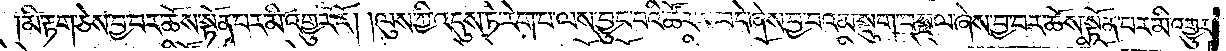མི་རྟག་ཅེས་བྱ་བར་ཆོས་སྟོན་པར་མི་འགྱུར་རོ། །ལུས་ཀྱི་འདུས་ཏེ་རེག་པ་ལས་བྱུང་བའི་ཚོར་བ་བདེ་ཞེས་བྱ་བའམ་སྡུག་བསྔལ་ཞེས་བྱ་བར་ཆོས་སྟོན་པར་མི་འགྱུར་
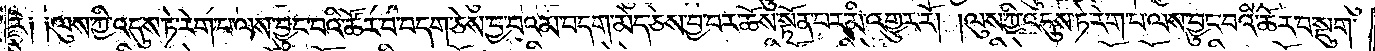རོ༑ ༑ལུས་ཀྱི་འདུས་ཏེ་རེག་པ་ལས་བྱུང་བའི་ཚོར་བ་བདག་ཅེས་བྱ་བའམ་བདག་མེད་ཅེས་བྱ་བར་ཆོས་སྟོན་པར་མི་འགྱུར་རོ། །ལུས་ཀྱི་འདུས་ཏེ་རེག་པ་ལས་བྱུང་བའི་ཚོར་བ་སྡུག་
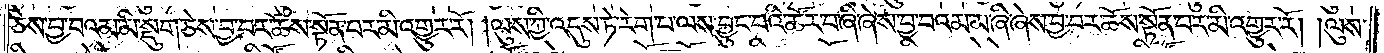ཅེས་བྱ་བའམ་མི་སྡུག་ཅེས་བྱ་བར་ཆོས་སྟོན་པར་མི་འགྱུར་རོ། །ལུས་ཀྱི་འདུས་ཏེ་རེག་པ་ལས་བྱུང་བའི་ཚོར་བ་ཞི་ཞེས་བྱ་བའམ་མ་ཞི་ཞེས་བྱ་བར་ཆོས་སྟོན་པར་མི་འགྱུར་རོ། །ལུས་
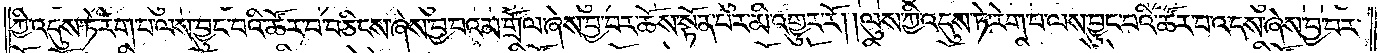ཀྱི་འདུས་ཏེ་རེག་པ་ལས་བྱུང་བའི་ཚོར་བ་བཅིངས་ཞེས་བྱ་བའམ་གྲོལ་ཞེས་བྱ་བར་ཆོས་སྟོན་པར་མི་འགྱུར་རོ། །ལུས་ཀྱི་འདུས་ཏེ་རེག་པ་ལས་བྱུང་བའི་ཚོར་བ་འདས་ཞེས་བྱ་བར་
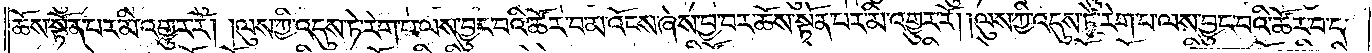ཆོས་སྟོན་པར་མི་འགྱུར་རོ། །ལུས་ཀྱི་འདུས་ཏེ་རེག་པ་ལས་བྱུང་བའི་ཚོར་བ་མ་འོངས་ཞེས་བྱ་བར་ཆོས་སྟོན་པར་མི་འགྱུར་རོ། །ལུས་ཀྱི་འདུས་ཏེ་རེག་པ་ལས་བྱུང་བའི་ཚོར་བ་ད་
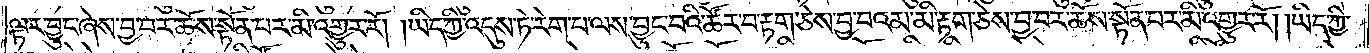ལྟར་བྱུང་ཞེས་བྱ་བར་ཆོས་སྟོན་པར་མི་འགྱུར་རོ། །ཡིད་ཀྱི་འདུས་ཏེ་རེག་པ་ལས་བྱུང་བའི་ཚོར་བ་རྟག་ཅེས་བྱ་བའམ་མི་རྟག་ཅེས་བྱ་བར་ཆོས་སྟོན་པར་མི་འགྱུར་རོ། །ཡིད་ཀྱི་
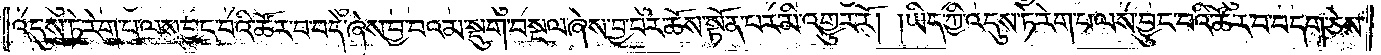འདུས་ཏེ་རེག་པ་ལས་བྱུང་བའི་ཚོར་བ་བདེ་ཞེས་བྱ་བའམ་སྡུག་བསྔལ་ཞེས་བྱ་བར་ཆོས་སྟོན་པར་མི་འགྱུར་རོ། །ཡིད་ཀྱི་འདུས་ཏེ་རེག་པ་ལས་བྱུང་བའི་ཚོར་བ་བདག་ཅེས་
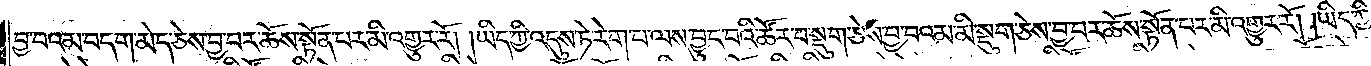བྱ་བའམ་བདག་མེད་ཅེས་བྱ་བར་ཆོས་སྟོན་པར་མི་འགྱུར་རོ། །ཡིད་ཀྱི་འདུས་ཏེ་རེག་པ་ལས་བྱུང་བའི་ཚོར་བ་སྡུག་ཅེས་བྱ་བའམ་མི་སྡུག་ཅེས་བྱ་བར་ཆོས་སྟོན་པར་མི་འགྱུར་རོ། །ཡིད་ཀྱི་
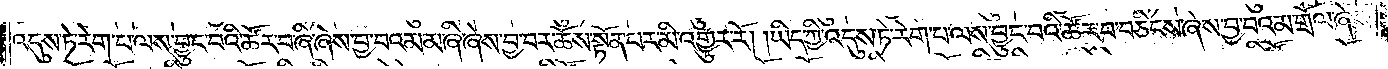འདུས་ཏེ་རེག་པ་ལས་བྱུང་བའི་ཚོར་བ་ཞི་ཞེས་བྱ་བའམ་མ་ཞི་ཞེས་བྱ་བར་ཆོས་སྟོན་པར་མི་འགྱུར་རོ། །ཡིད་ཀྱི་འདུས་ཏེ་རེག་པ་ལས་བྱུང་བའི་ཚོར་བ་བཅིངས་ཞེས་བྱ་བའམ་གྲོལ་ཞེས་
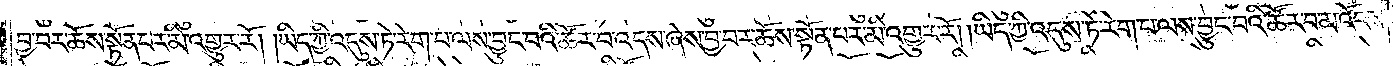བྱ་བར་ཆོས་སྟོན་པར་མི་འགྱུར་རོ། །ཡིད་ཀྱི་འདུས་ཏེ་རེག་པ་ལས་བྱུང་བའི་ཚོར་བ་འདས་ཞེས་བྱ་བར་ཆོས་སྟོན་པར་མི་འགྱུར་རོ། །ཡིད་ཀྱི་འདུས་ཏེ་རེག་པ་ལས་བྱུང་བའི་ཚོར་བ་མ་འོངས་
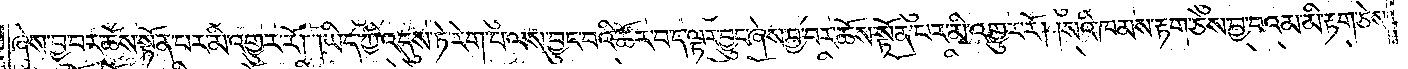ཞེས་བྱ་བར་ཆོས་སྟོན་པར་མི་འགྱུར་རོ། །ཡིད་ཀྱི་འདུས་ཏེ་རེག་པ་ལས་བྱུང་བའི་ཚོར་བ་ད་ལྟར་བྱུང་ཞེས་བྱ་བར་ཆོས་སྟོན་པར་མི་འགྱུར་རོ། །སའི་ཁམས་རྟག་ཅེས་བྱ་བའམ་མི་རྟག་ཅེས་
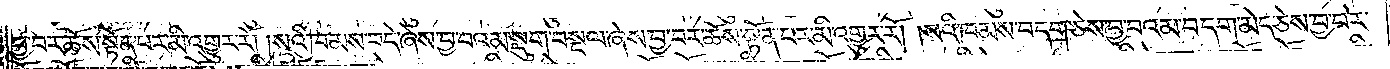བྱ་བར་ཆོས་སྟོན་པར་མི་འགྱུར་རོ། །སའི་ཁམས་བདེ་ཞེས་བྱ་བའམ་སྡུག་བསྔལ་ཞེས་བྱ་བར་ཆོས་སྟོན་པར་མི་འགྱུར་རོ། །སའི་ཁམས་བདག་ཅེས་བྱ་བའམ་བདག་མེད་ཅེས་བྱ་བར་
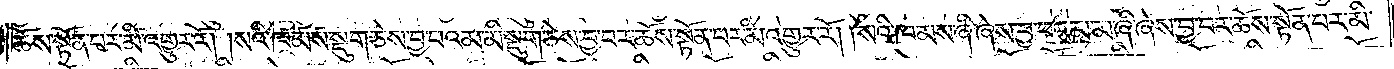ཆོས་སྟོན་པར་མི་འགྱུར་རོ། །སའི་ཁམས་སྡུག་ཅེས་བྱ་བའམ་མི་སྡུག་ཅེས་བྱ་བར་ཆོས་སྟོན་པར་མི་འགྱུར་རོ། །སའི་ཁམས་ཞི་ཞེས་བྱ་བའམ་མ་ཞི་ཞེས་བྱ་བར་ཆོས་སྟོན་པར་མི་
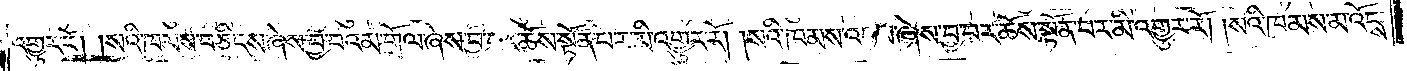འགྱུར་རོ། །སའི་ཁམས་བཅིངས་ཞེས་བྱ་བའམ་གྲོལ་ཞེས་བྱ་བར་ཆོས་སྟོན་པར་མི་འགྱུར་རོ། །སའི་ཁམས་འདས་ཞེས་བྱ་བར་ཆོས་སྟོན་པར་མི་འགྱུར་རོ། །སའི་ཁམས་མ་འོངས་
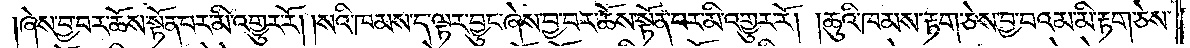ཞེས་བྱ་བར་ཆོས་སྟོན་པར་མི་འགྱུར་རོ། །སའི་ཁམས་ད་ལྟར་བྱུང་ཞེས་བྱ་བར་ཆོས་སྟོན་པར་མི་འགྱུར་རོ། །ཆུའི་ཁམས་རྟག་ཅེས་བྱ་བའམ་མི་རྟག་ཅེས་
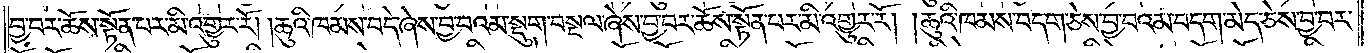བྱ་བར་ཆོས་སྟོན་པར་མི་འགྱུར་རོ། །ཆུའི་ཁམས་བདེ་ཞེས་བྱ་བའམ་སྡུག་བསྔལ་ཞེས་བྱ་བར་ཆོས་སྟོན་པར་མི་འགྱུར་རོ། །ཆུའི་ཁམས་བདག་ཅེས་བྱ་བའམ་བདག་མེད་ཅེས་བྱ་བར་
